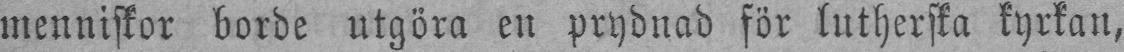menniskor borde utgöra en prydnad för lutherska kyrkan,
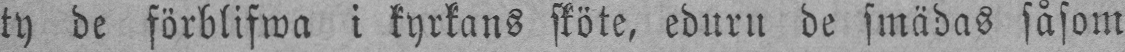ty de förblifwa i kyrkans sköte, eduru de smädas såsom
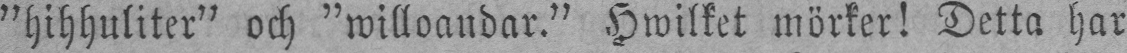"hihhuliter" och "willoandar." Hwilket mörker! Detta har
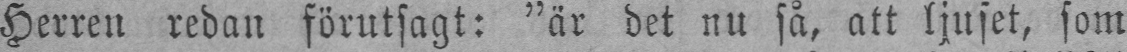Herren redan förutsagt: "är det nu så, att ljuset, som
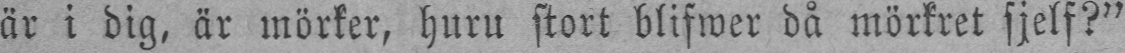är i dig, är mörker, huru stort blifwer då mörkret sjelf?"
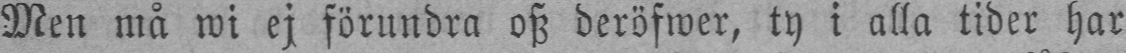Men må wi ej förundra osz deröfwer, ty i alla tider har
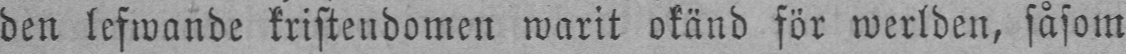den lefwande kristendomen warit okänd för werlden, såsom
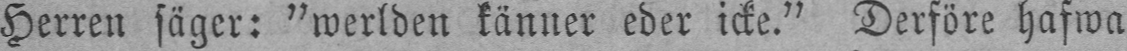Herren säger: "werlden känner eder icke." Derföre hafwa
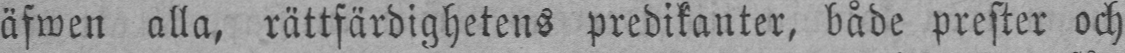äfwen alla, rättfärdighetens predikanter, både prester och
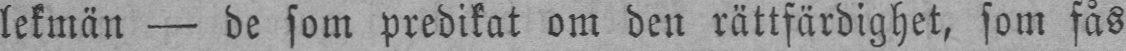lekmän — de som predikat om den rättfärdighet, som fås
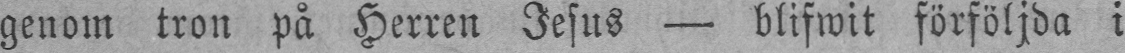genom tron på Herren Jesus — blifwit förföljda i
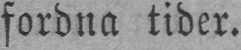fordna tider.
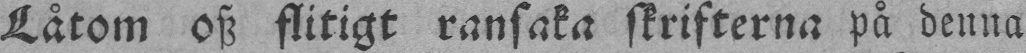Låtom osz flitigt ransaka skrifterna på denna
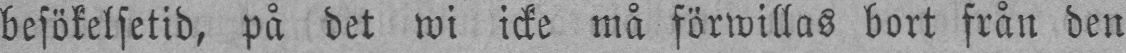besökelsetid, på det wi icke må förwillas bort från den
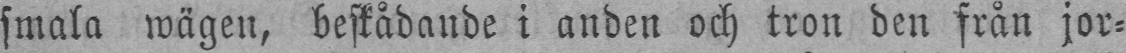smala wägen, beskådande i anden och tron den från jor-
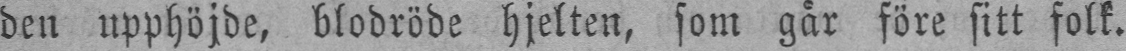den upphöjde, blodröde hjelten, som går före sitt folk.
